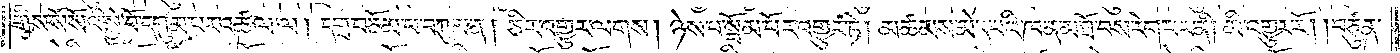གིས་སོ་སོའི་སྐྱེ་བོ་དགུམ་པར་འཚལ་ལ། དགྲ་བཅོམ་པ་བཀུམ་ན། ཅིར་འགྱུར་ལགས། ཉེས་པ་སྦོམ་པོར་འགྱུར་ཏེ། མཚམས་མེད་པའི་ཁ་ན་མ་ཐོ་བས་རེག་པར་ནི། མི་འགྱུར་རོ། །བཙུན་
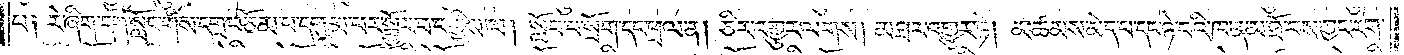པ༑ རེ་ཞིག་དགེ་སློང་གིས་དགྲ་བཅོམ་པ་དགུམ་པར་སྦྱོར་བ་བགྱིས་ལ། སློབ་པ་སྲོག་དང་ཕྲལ་ན། ཅིར་འགྱུར་ལགས། མཐར་འགྱུར་ཏེ། མཚམས་མེད་པ་དང་ཉེ་བའི་ཁ་ན་མ་ཐོ་བས་ཀྱང་རེག་
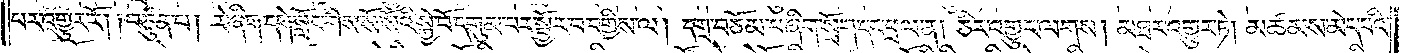པར་འགྱུར་རོ། །བཙུན་པ། རེ་ཞིག་དགེ་སློང་གིས་སོ་སོའི་སྐྱེ་བོ་དགུམ་པར་སྦྱོར་བ་བགྱིས་ལ། དགྲ་བཅོམ་པ་ཞིག་སྲོག་དང་ཕྲལ་ན། ཅིར་འགྱུར་ལགས། མཐར་འགྱུར་ཏེ། མཚམས་མེད་པའི་
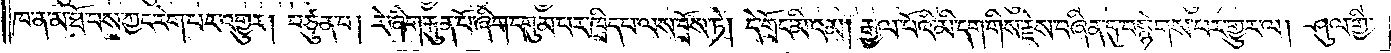ཁ་ན་མ་ཐོ་བས་ཀྱང་རེག་པར་འགྱུར། བཙུན་པ། རེ་ཞིག་རྐུན་པོ་ཞིག་དགུམ་པར་ཁྲིད་པ་ལས་བྲོས་ཏེ། དེ་གྲོང་མི་འམ། རྒྱལ་པོའི་མི་དག་གིས་རྗེས་བཞིན་དུ་བསྙེགས་པར་གྱུར་ལ། ཤུལ་གྱི་
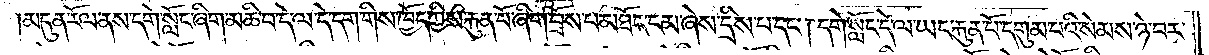།མདུན་རོལ་ནས་དགེ་སློང་ཞིག་མཆི་བ་དེ་ལ་དེ་དག་གིས་ཁྱོད་ཀྱིས་རྐུན་པོ་ཞིག་བྲོས་པ་མཐོང་ངམ་ཞེས་དྲིས་པ་དང༌། དགེ་སློང་དེ་ལ་ཡང་རྐུན་པོ་དགུམ་པའི་སེམས་ཉེ་བར་
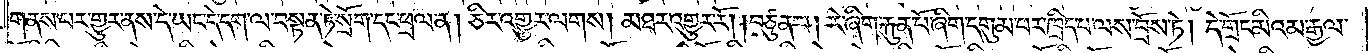གནས་པར་གྱུར་ནས་དེ་ཡང་དེ་དག་ལ་བསྟན་ཏེ་སྲོག་དང་ཕྲལ་ན། ཅིར་འགྱུར་ལགས། མཐར་འགྱུར་རོ། །བཙུན་པ། རེ་ཞིག་རྐུན་པོ་ཞིག་དགུམ་པར་ཁྲིད་པ་ལས་བྲོས་ཏེ། དེ་གྲོང་མིའམ་རྒྱལ་
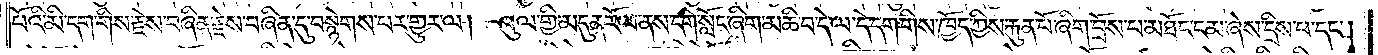པོའི་མི་དག་གིས་རྗེས་བཞིན་རྗེས་བཞིན་དུ་བསྙེགས་པར་གྱུར་ལ། ཤུལ་གྱི་མདུན་རོལ་ནས་དགེ་སློང་ཞིག་མཆི་བ་དེ་ལ་དེ་དག་གིས་ཁྱོད་ཀྱིས་རྐུན་པོ་ཞིག་བྲོས་པ་མཐོང་ངམ་ཞེས་དྲིས་པ་དང༌།
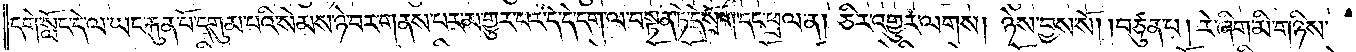དགེ་སློང་དེ་ལ་ཡང་རྐུན་པོ་དགུམ་པའི་སེམས་ཉེ་བར་གནས་པར་མ་གྱུར་པར་དེ་དེ་དག་ལ་བསྟན་ཏེ་དེ་སྲོག་དང་ཕྲལ་ན། ཅིར་འགྱུར་ལགས། ཉེས་བྱས་སོ། །བཙུན་པ། རེ་ཞིག་མི་གཉིས་
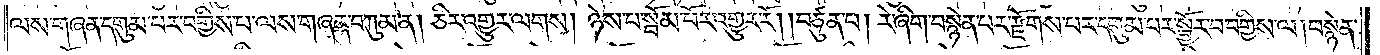ལས་གཞན་དགུམ་པར་བགྱིས་པ་ལས་གཞན་བཀུམ་ན། ཅིར་འགྱུར་ལགས། ཉེས་པ་སྦོམ་པོར་འགྱུར་རོ། །བཙུན་པ། རེ་ཞིག་བསྙེན་པར་རྫོགས་པར་དགུམ་པར་སྦྱོར་བ་བགྱིས་ལ། བསྙེན་
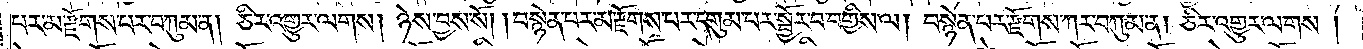པར་མ་རྫོགས་པར་བཀུམ་ན། ཅིར་འགྱུར་ལགས། ཉེས་བྱས་སོ། །བསྙེན་པར་མ་རྫོགས་པར་དགུམ་པར་སྦྱོར་བ་བགྱིས་ལ། བསྙེན་པར་རྫོགས་ཀར་བཀུམ་ན། ཅིར་འགྱུར་ལགས།
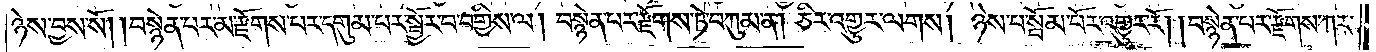ཉེས་བྱས་སོ། །བསྙེན་པར་མ་རྫོགས་པར་དགུམ་པར་སྦྱོར་བ་བགྱིས་ལ། བསྙེན་པར་རྫོགས་ཏེ་བཀུམ་ན། ཅིར་འགྱུར་ལགས། ཉེས་པ་སྦོམ་པོར་འགྱུར་རོ། །བསྙེན་པར་རྫོགས་ཀར་
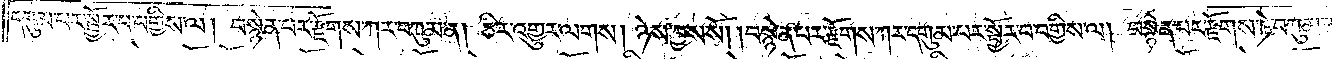དགུམ་པར་སྦྱོར་པ་བགྱིས་ལ། བསྙེན་པར་རྫོགས་ཀར་བཀུམ་ན། ཅིར་འགྱུར་ལགས། ཉེས་བྱས་སོ། །བསྙེན་པར་རྫོགས་ཀར་དགུམ་པར་སྦྱོར་བ་བགྱིས་ལ། བསྙེན་པར་རྫོགས་ཏེ་བཀུམ་ན།
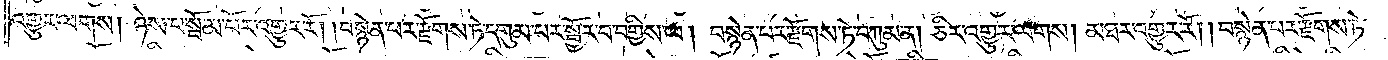འགྱུར་ལགས། ཉེས་པ་སྦོམ་པོར་འགྱུར་རོ། །བསྙེན་པར་རྫོགས་ཏེ་དགུམ་པར་སྦྱོར་བ་བགྱིས་ལ། བསྙེན་པར་རྫོགས་ཏེ་བཀུམ་ན། ཅིར་འགྱུར་ལགས། མཐར་འགྱུར་རོ། །བསྙེན་པར་རྫོགས་ཏེ་
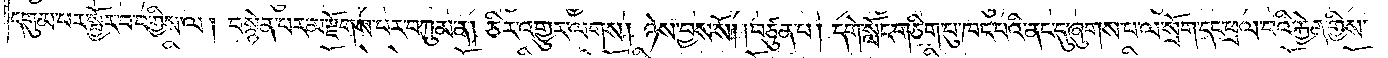དགུམ་པར་སྦྱོར་བ་བགྱིས་ལ། བསྙེན་པར་མ་རྫོགས་པར་བཀུམ་ན། ཅིར་འགྱུར་ལགས། ཉེས་བྱས་སོ། །བཙུན་པ། དགེ་སློང་གཅིག་པུ་ཁང་པའི་ནང་དུ་ཞུགས་པ་ལ་སྲོག་དང་ཕྲལ་བའི་རྐྱེན་གྱིས་
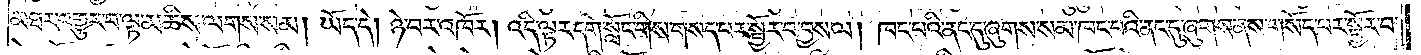མཐར་འགྱུར་བ་ལྟ་མཆིས་ལགས་སམ། ཡོད་དེ། ཉེ་བར་འཁོར། འདི་ལྟར་དགེ་སློང་གིས་གསད་པར་སྦྱོར་བ་བྱས་ལ། ཁང་པའི་ནང་དུ་ཞུགས་སམ་ཁང་པའི་ནང་དུ་ཞུགས་ནས་གསོད་པར་སྦྱོར་བ་
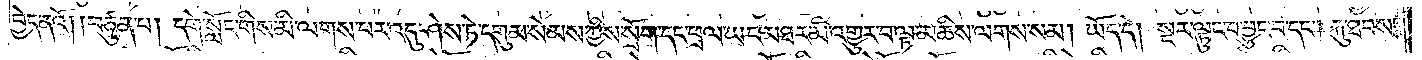བྱེད་ནའོ། །བཙུན་པ། དགེ་སློང་གིས་མི་ལགས་པར་འདུ་ཤེས་ཏེ་དགུམ་སེམས་ཀྱིས་སྲོག་དང་ཕྲལ་ཡང་མཐར་མི་འགྱུར་བ་ལྟ་མཆིས་ལགས་སམ། ཡོད་དེ། སྔར་ལྟུང་བ་བྱུང་བ་དང༌། རྐུ་ཐབས་
